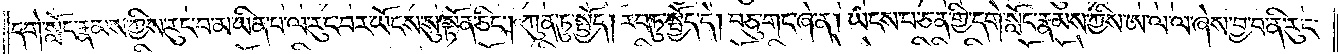དགེ་སློང་རྣམས་ཀྱིས་རུང་པ་མ་ཡིན་པ་ལ་རུང་བར་ཡོངས་སུ་སྟོན་ཅིང༌། ཀུན་ཏུ་སྤྱོད། རབ་ཏུ་སྤྱོད་དེ། བཅུ་གང་ཞེ་ན། ཡངས་པ་ཅན་གྱི་དགེ་སློང་རྣམས་ཀྱིས་ཨ་ལ་ལ་ཞེས་བྱ་བ་ནི་རུང་
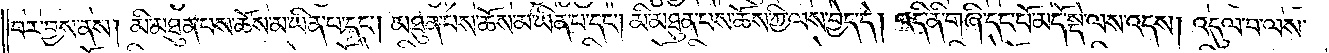བར་བྱས་ནས། མི་མཐུན་པས་ཆོས་མ་ཡིན་པ་དང༌། མཐུན་པས་ཆོས་མ་ཡིན་པ་དང༌། མི་མཐུན་པས་ཆོས་ཀྱི་ལས་བྱེད་དེ། འདི་ནི་གཞི་དང་པོ་མདོ་སྡེ་ལས་འདས། འདུལ་བ་ལས་
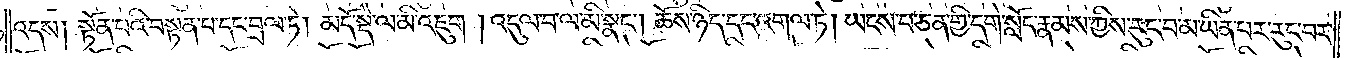འདས། སྟོན་པའི་བསྟན་པ་དང་བྲལ་ཏེ། མདོ་སྡེ་ལ་མི་འཇུག །འདུལ་བ་ལ་མི་སྣང༌། ཆོས་ཉིད་དང་འགལ་ཏེ། ཡངས་པ་ཅན་གྱི་དགེ་སློང་རྣམས་ཀྱིས་རུང་བ་མ་ཡིན་པར་རུང་བར་
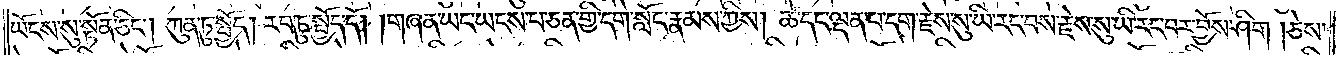ཡོངས་སུ་སྟོན་ཅིང༌། ཀུན་ཏུ་སྤྱོད། རབ་ཏུ་སྤྱོད་དོ། །གཞན་ཡང་ཡངས་པ་ཅན་གྱི་དགེ་སློང་རྣམས་ཀྱིས། ཚེ་དང་ལྡན་པ་དག་རྗེས་སུ་ཡི་རང་བས་རྗེས་སུ་ཡི་རང་བར་བྱོས་ཤིག །ཅེས་
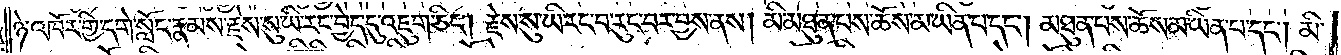ཉེ་འཁོར་གྱི་དགེ་སློང་རྣམས་རྗེས་སུ་ཡི་རང་བྱེད་དུ་འཇུག་ཅིང༌། རྗེས་སུ་ཡི་རང་བ་རུང་བར་བྱས་ནས། མི་མཐུན་པས་ཆོས་མ་ཡིན་པ་དང༌། མཐུན་པས་ཆོས་མ་ཡིན་པ་དང༌། མི་
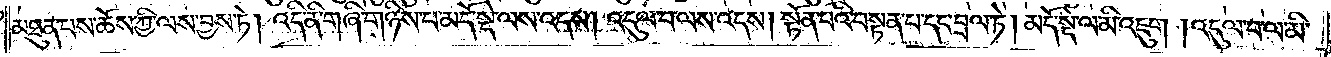མཐུན་པས་ཆོས་ཀྱི་ལས་བྱས་ཏེ། འདི་ནི་གཞི་གཉིས་པ་མདོ་སྡེ་ལས་འདས། འདུལ་བ་ལས་འདས། སྟོན་པའི་བསྟན་པ་དང་བྲལ་ཏེ། མདོ་སྡེ་ལ་མི་འཇུག །འདུལ་བ་ལ་མི་
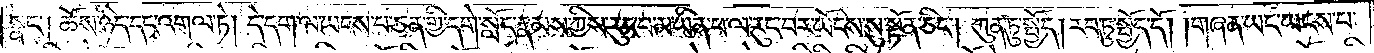སྣང༌། ཆོས་ཉིད་དང་འགལ་ཏེ། དེ་དག་ལ་ཡངས་པ་ཅན་གྱི་དགེ་སློང་རྣམས་ཀྱིས་རུང་བ་མ་ཡིན་པ་ལ་རུང་བར་ཡོངས་སུ་སྟོན་ཅིང༌། ཀུན་ཏུ་སྤྱོད། རབ་ཏུ་སྤྱོད་དོ། །གཞན་ཡང་ཡངས་པ་
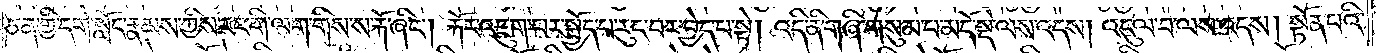ཅན་གྱི་དགེ་སློང་རྣམས་ཀྱིས་རང་གི་ལག་གིས་ས་རྐོ་ཞིང༌། རྐོར་འཇུག་པར་སྤྱོད་པ་རུང་བར་བྱེད་པ་སྟེ། འདི་ནི་གཞི་གསུམ་པ་མདོ་སྡེ་ལས་འདས། འདུལ་བ་ལས་འདས། སྟོན་པའི་
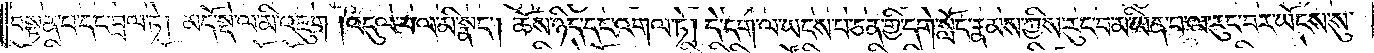བསྟན་པ་དང་བྲལ་ཏེ། མདོ་སྡེ་ལ་མི་འཇུག །འདུལ་བ་ལ་མི་སྣང༌། ཆོས་ཉིད་དང་འགལ་ཏེ། དེ་དག་ལ་ཡངས་པ་ཅན་གྱི་དགེ་སློང་རྣམས་ཀྱིས་རུང་བ་མ་ཡིན་པ་ལ་རུང་བར་ཡོངས་སུ་
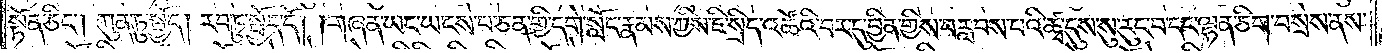སྟོན་ཅིང༌། ཀུན་ཏུ་སྤྱོད། རབ་ཏུ་སྤྱོད་དོ། །གཞན་ཡང་ཡངས་པ་ཅན་གྱི་དགེ་སློང་རྣམས་ཀྱིས་ཇི་སྲིད་འཚོའི་བར་དུ་བྱིན་གྱིས་བརླབས་པའི་ཚྭ་དུས་སུ་རུང་བ་དང་ལྷན་ཅིག་བསྲེས་ནས་
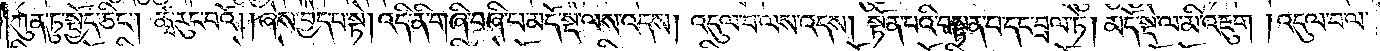ཀུན་ཏུ་སྤྱོད་ཅིང༌། ཚྭ་རུང་བའོ། །ཞེས་བྱེད་པ་སྟེ། འདི་ནི་གཞི་བཞི་པ་མདོ་སྡེ་ལས་འདས། འདུལ་བ་ལས་འདས། སྟོན་པའི་བསྟན་པ་དང་བྲལ་ཏེ། མདོ་སྡེ་ལ་མི་འཇུག །འདུལ་བ་ལ་
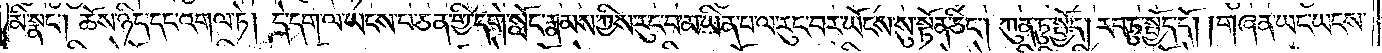མི་སྣང༌། ཆོས་ཉིད་དང་འགལ་ཏེ། དེ་དག་ལ་ཡངས་པ་ཅན་གྱི་དགེ་སློང་རྣམས་ཀྱིས་རུང་བ་མ་ཡིན་པ་ལ་རུང་བར་ཡོངས་སུ་སྟོན་ཅིང༌། ཀུན་ཏུ་སྤྱོད། རབ་ཏུ་སྤྱོད་དོ། །གཞན་ཡང་ཡངས་
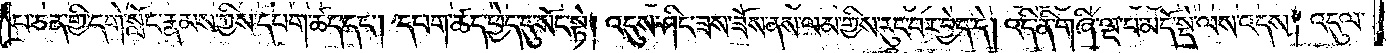པ་ཅན་གྱི་དགེ་སློང་རྣམས་ཀྱིས་དཔག་ཚད་དང༌། དཔག་ཚད་ཕྱེད་དུ་སོང་སྟེ། འདུས་ཤིང་ཟས་ཟོས་ནས་ལམ་གྱིས་རུང་བར་བྱེད་དེ། འདི་ནི་གཞི་ལྔ་པ་མདོ་སྡེ་ལས་འདས། འདུལ་
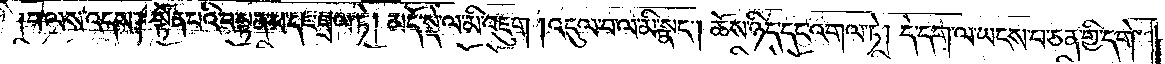བ་ལས་འདས། སྟོན་པའི་བསྟན་པ་དང་བྲལ་ཏེ། མདོ་སྡེ་ལ་མི་འཇུག །འདུལ་བ་ལ་མི་སྣང༌། ཆོས་ཉིད་དང་འགལ་ཏེ། དེ་དག་ལ་ཡངས་པ་ཅན་གྱི་དགེ་
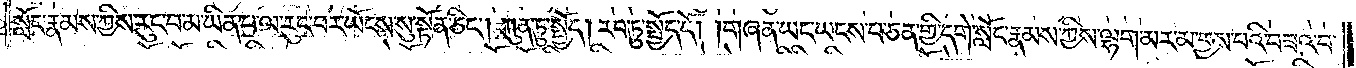སློང་རྣམས་ཀྱིས་རུང་བ་མ་ཡིན་པ་ལ་རུང་བར་ཡོངས་སུ་སྟོན་ཅིང༌། ཀུན་ཏུ་སྤྱོད། རབ་ཏུ་སྤྱོད་དོ། །གཞན་ཡང་ཡངས་པ་ཅན་གྱི་དགེ་སློང་རྣམས་ཀྱིས་ལྷག་མར་མ་བྱས་པའི་བཟའ་བ་
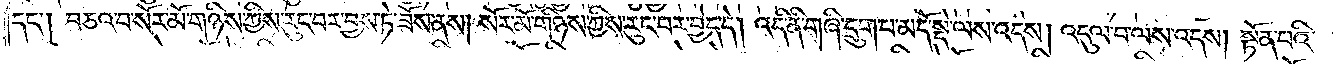དང༌། བཅའ་བ་སོར་མོ་གཉིས་ཀྱིས་རུང་བར་བྱས་ཏེ་ཟོས་ནས། སོར་མོ་གཉིས་ཀྱིས་རུང་བར་བྱེད་དེ། འདི་ནི་གཞི་དྲུག་པ་མདོ་སྡེ་ལས་འདས། འདུལ་བ་ལས་འདས། སྟོན་པའི་
